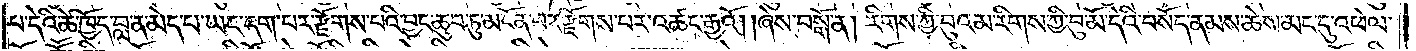པ་དེའི་ཚེ་ཁྱོད་བླ་ན་མེད་པ་ཡང་དག་པར་རྫོགས་པའི་བྱང་ཆུབ་ཏུ་མངོན་པར་རྫོགས་པར་འཚང་རྒྱའོ། །ཞེས་བསྒོ་ན། རིགས་ཀྱི་བུའམ་རིགས་ཀྱི་བུ་མོ་དེའི་བསོད་ནམས་ཆེས་མང་དུ་འཕེལ་
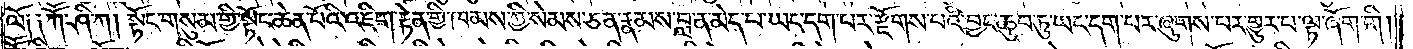ལོ༑ ༑ཀཽ་ཤི་ཀ། སྟོང་གསུམ་གྱི་སྟོང་ཆེན་པོའི་འཇིག་རྟེན་གྱི་ཁམས་ཀྱི་སེམས་ཅན་རྣམས་བླ་ན་མེད་པ་ཡང་དག་པར་རྫོགས་པའི་བྱང་ཆུབ་ཏུ་ཡང་དག་པར་ཞུགས་པར་གྱུར་པ་ལྟ་ཞོག་གི །
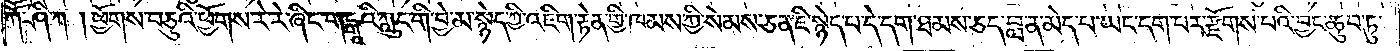ཀཽ་ཤི་ཀ། ཕྱོགས་བཅུའི་ཕྱོགས་རེ་རེ་ཞིང་གངྒཱའི་ཀླུང་གི་བྱེ་མ་སྙེད་ཀྱི་འཇིག་རྟེན་གྱི་ཁམས་ཀྱི་སེམས་ཅན་ཇི་སྙེད་པ་དེ་དག་ཐམས་ཅད་བླ་ན་མེད་པ་ཡང་དག་པར་རྫོགས་པའི་བྱང་ཆུབ་ཏུ་
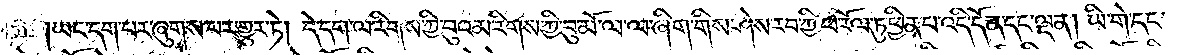ཡང་དག་པར་ཞུགས་པར་གྱུར་ཏེ། དེ་དག་ལ་རིགས་ཀྱི་བུའམ་རིགས་ཀྱི་བུ་མོ་ལ་ལ་ཞིག་གིས་ཤེས་རབ་ཀྱི་ཕ་རོལ་ཏུ་ཕྱིན་པ་འདི་དོན་དང་ལྡན། ཡི་གེ་དང་
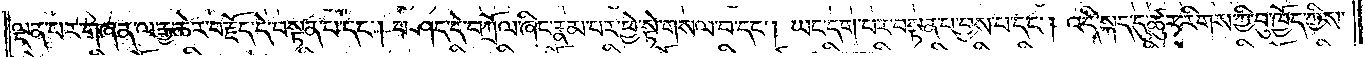ལྡན་པར་གཞན་ལ་རྒྱ་ཆེར་བརྗོད་དེ་བསྟན་པ་དང༌། བཤད་དེ་བཀྲོལ་ཞིང་རྣམ་པར་ཕྱེ་སྟེ་གསལ་བ་དང༌། ཡང་དག་པར་བསྟན་པ་བྱས་པ་དང༌། འདི་སྐད་དུ་ཚུར་རིགས་ཀྱི་བུ་ཁྱོད་ཀྱིས་
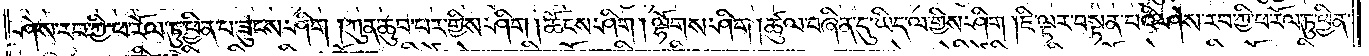ཤེས་རབ་ཀྱི་ཕ་རོལ་ཏུ་ཕྱིན་པ་ཟུངས་ཤིག། །ཀུན་ཆུབ་པར་གྱིས་ཤིག །ཆོངས་ཤིག། ལྷོགས་ཤིག །ཚུལ་བཞིན་དུ་ཡིད་ལ་གྱིས་ཤིག །ཇི་ལྟར་བསྟན་པའི་ཤེས་རབ་ཀྱི་ཕ་རོལ་ཏུ་ཕྱིན་
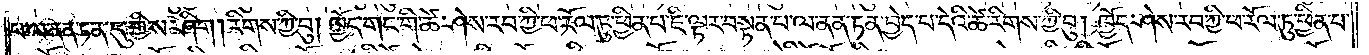པ་ལ་ནན་ཏན་དུ་གྱིས་ཤིག །རིགས་ཀྱི་བུ། ཁྱོད་གང་གི་ཚེ་ཤེས་རབ་ཀྱི་ཕ་རོལ་ཏུ་ཕྱིན་པ་ཇི་ལྟར་བསྟན་པ་ལ་ནན་ཏན་བྱེད་པ་དེའི་ཚེ་རིགས་ཀྱི་བུ། ཁྱོད་ཤེས་རབ་ཀྱི་ཕ་རོལ་ཏུ་ཕྱིན་པ་
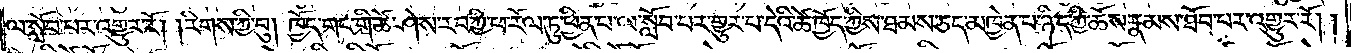ལ་སློབ་པར་འགྱུར་རོ། །རིགས་ཀྱི་བུ། ཁྱོད་གང་གི་ཚེ་ཤེས་རབ་ཀྱི་ཕ་རོལ་ཏུ་ཕྱིན་པ་ལ་སློབ་པར་གྱུར་པ་དེའི་ཚེ་ཁྱོད་ཀྱིས་ཐམས་ཅད་མཁྱེན་པ་ཉིད་ཀྱི་ཆོས་རྣམས་ཐོབ་པར་འགྱུར་རོ༎
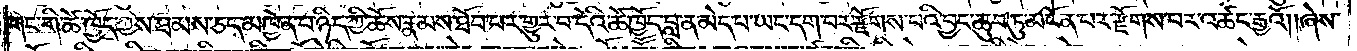གང་གི་ཚེ་ཁྱོད་ཀྱིས་ཐམས་ཅད་མཁྱེན་པ་ཉིད་ཀྱི་ཆོས་རྣམས་ཐོབ་པར་གྱུར་པ་དེའི་ཚེ་ཁྱོད་བླ་ན་མེད་པ་ཡང་དག་པར་རྫོགས་པའི་བྱང་ཆུབ་ཏུ་མངོན་པར་རྫོགས་པར་འཚང་རྒྱའོ། །ཞེས་
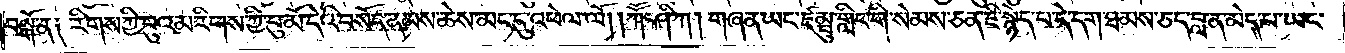བསྒོ་ན༑ རིགས་ཀྱི་བུའམ་རིགས་ཀྱི་བུ་མོ་དེའི་བསོད་ནམས་ཆེས་མང་དུ་འཕེལ་ལོ། །ཀཽ་ཤི་ཀ། གཞན་ཡང་ཛམྦུ་གླིང་གི་སེམས་ཅན་ཇི་སྙེད་པ་དེ་དག་ཐམས་ཅད་བླ་ན་མེད་པ་ཡང་
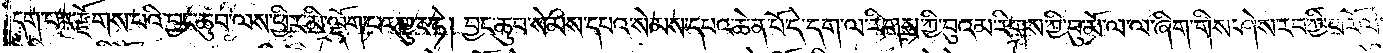དག་པར་རྫོགས་པའི་བྱང་ཆུབ་ལས་ཕྱིར་མི་ལྡོག་པར་གྱུར་ཏེ། བྱང་ཆུབ་སེམས་དཔའ་སེམས་དཔའ་ཆེན་པོ་དེ་དག་ལ་རིགས་ཀྱི་བུའམ་རིགས་ཀྱི་བུ་མོ་ལ་ལ་ཞིག་གིས་ཤེས་རབ་ཀྱི་ཕ་རོལ་
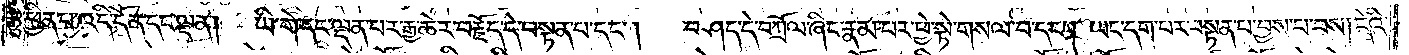ཏུ་ཕྱིན་པ་འདི་དོན་དང་ལྡན། ཡི་གེ་དང་ལྡན་པར་རྒྱ་ཆེར་བརྗོད་དེ་བསྟན་པ་དང༌། བཤད་དེ་བཀྲོལ་ཞིང་རྣམ་པར་ཕྱེ་སྟེ་གསལ་བ་དང༌། ཡང་དག་པར་བསྟན་པ་བྱས་པ་བས། དེའི་
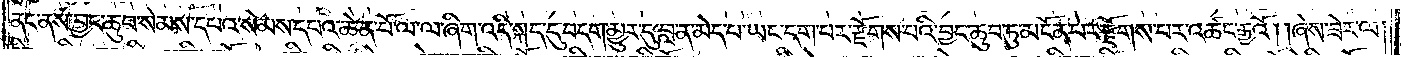ནང་ནས་བྱང་ཆུབ་སེམས་དཔའ་སེམས་དཔའ་ཆེན་པོ་ལ་ལ་ཞིག །འདི་སྐད་དུ་བདག་མྱུར་དུ་བླ་ན་མེད་པ་ཡང་དག་པར་རྫོགས་པའི་བྱང་ཆུབ་ཏུ་མངོན་པར་རྫོགས་པར་འཚང་རྒྱའོ། །ཞེས་ཟེར་ལ།
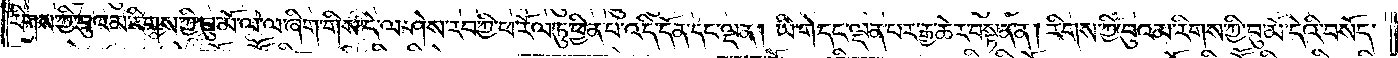རིགས་ཀྱི་བུའམ་རིགས་ཀྱི་བུ་མོ་ལ་ལ་ཞིག་གིས་དེ་ལ་ཤེས་རབ་ཀྱི་ཕ་རོལ་ཏུ་ཕྱིན་པ་འདི་དོན་དང་ལྡན། ཡི་གེ་དང་ལྡན་པར་རྒྱ་ཆེར་བསྟན་ན། རིགས་ཀྱི་བུའམ་རིགས་ཀྱི་བུ་མོ་དེའི་བསོད་
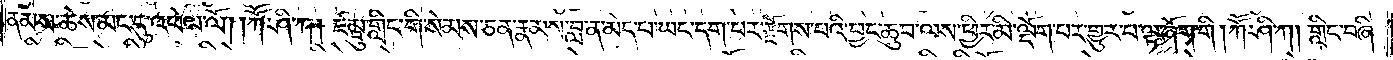ནམས་ཆེས་མང་དུ་འཕེལ་ལོ། །ཀཽ་ཤི་ཀ། ཛམྦུ་གླིང་གི་སེམས་ཅན་རྣམས་བླ་ན་མེད་པ་ཡང་དག་པར་རྫོགས་པའི་བྱང་ཆུབ་ལས་ཕྱིར་མི་ལྡོག་པར་གྱུར་པ་ལྟ་ཞོག་གི །ཀཽ་ཤི་ཀ། གླིང་བཞི་
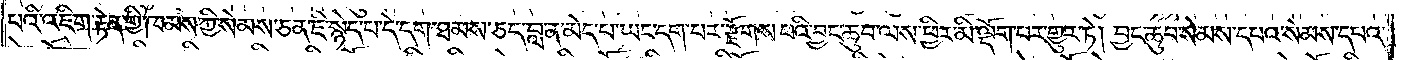པའི་འཇིག་རྟེན་གྱི་ཁམས་ཀྱི་སེམས་ཅན་ཇི་སྙེད་པ་དེ་དག་ཐམས་ཅད་བླ་ན་མེད་པ་ཡང་དག་པར་རྫོགས་པའི་བྱང་ཆུབ་ལས་ཕྱིར་མི་ལྡོག་པར་གྱུར་ཏེ། བྱང་ཆུབ་སེམས་དཔའ་སེམས་དཔའ་
